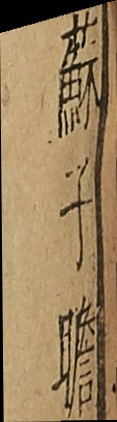蘇子瞻
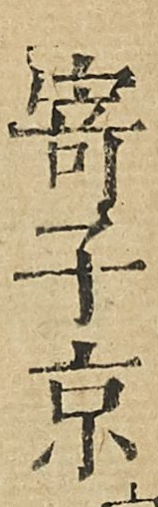寄子京
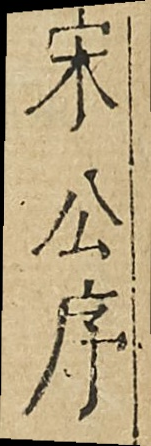宋公序
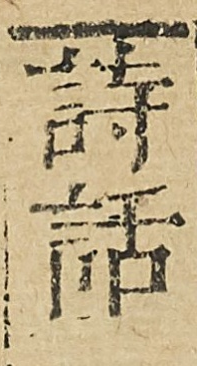詩話
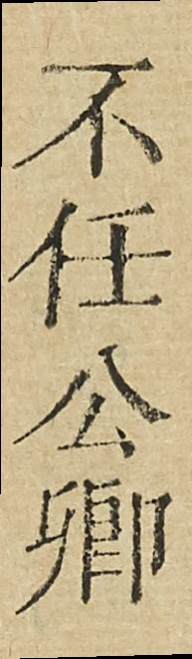不任公卿
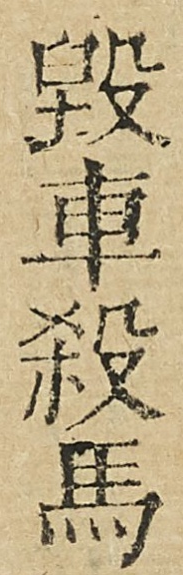毁車殺馬
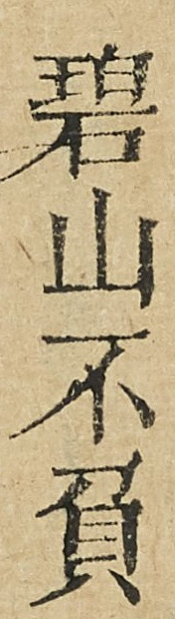碧山不負
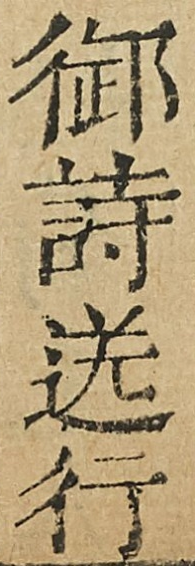御詩送行
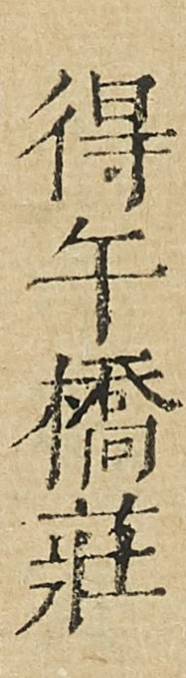得午橋莊
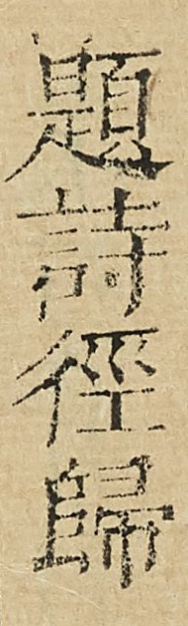題詩徑歸
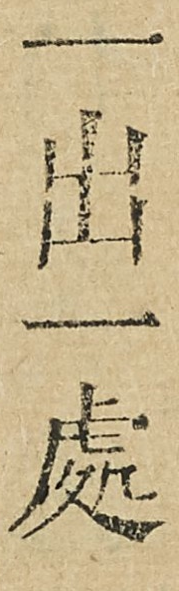一出一處
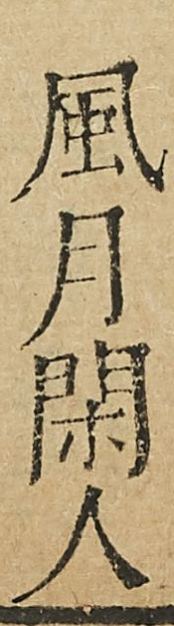風月閑人
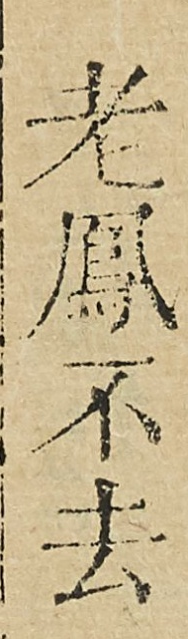老鳳不去
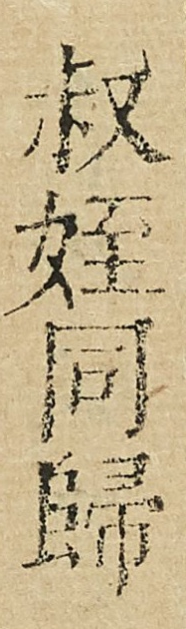叔姪同歸
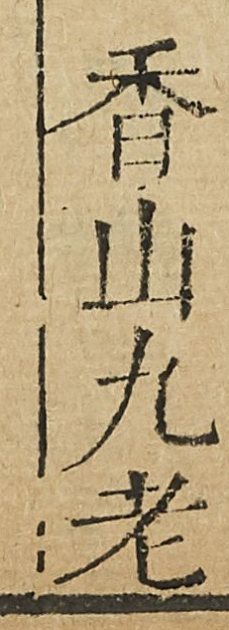香山九老
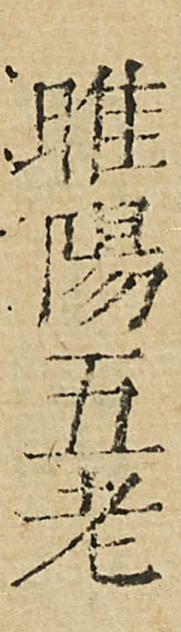睢陽五老
